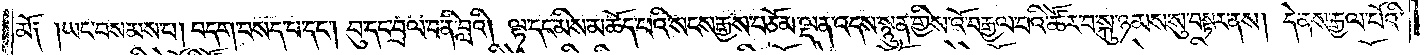མོ༑ །ཡང་བསམས་པ། བདག་བསད་པ་དང༌། བུ་དང་བྲལ་བ་ནི་བླའི། །ལྷ་དང་མིས་མཆོད་པའི་སངས་རྒྱས་བཅོམ་ལྡན་འདས་སྙུན་གྱིས་འོ་བརྒྱལ་བའི་ཚོར་བ་སྐུ་ཉམས་སུ་བསྟར་ནས། དེ་ནས་རྒྱལ་པོའི་
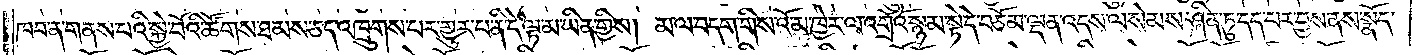ཁབ་ན་གནས་པའི་སྐྱེ་བོའི་ཚོགས་ཐམས་ཅད་འཁྲུགས་པར་གྱུར་པ་ནི་དེ་ལྟ་མ་ཡིན་གྱིས། མ་ལ་བདག་གིས་འོ་མ་ཁྱེར་ལ་འགྲོའོ་སྙམ་སྟེ་དེ་བཅོམ་ལྡན་འདས་ལ་སེམས་ཤིན་ཏུ་དད་པར་བྱས་ནས་སྣོད་
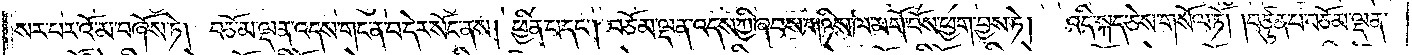སར་པར་འོ་མ་བཞོས་ཏེ། བཅོམ་ལྡན་འདས་གང་ན་བ་དེར་སོང་ནས། ཕྱིན་པ་དང༌། བཅོམ་ལྡན་འདས་ཀྱི་ཞབས་གཉིས་ལ་མགོ་བོས་ཕྱག་བྱས་ཏེ། འདི་སྐད་ཅེས་གསོལ་ཏོ། །བཙུན་པ་བཅོམ་ལྡན་
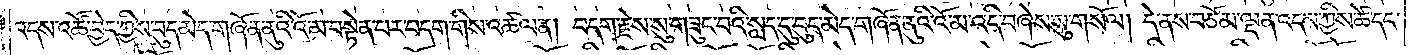འདས་འཚོ་བྱེད་ཀྱིས་བུད་མེད་གཞོན་ནུའི་འོ་མ་བསྟེན་པར་བདག་གིས་འཚལ་ན། བདག་རྗེས་སུ་གཟུང་བའི་སླད་དུ་བུད་མེད་གཞོན་ནུའི་འོ་མ་འདི་བཞེས་སུ་གསོལ། དེ་ནས་བཅོམ་ལྡན་འདས་ཀྱིས་ཚེ་དང་
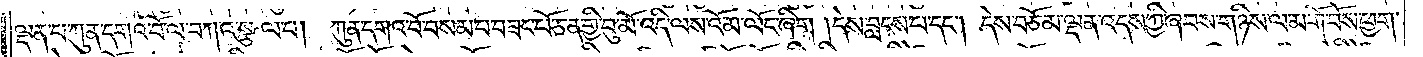ལྡན་པ་ཀུན་དགའ་བོ་ལ་བཀའ་སྩལ་པ། ཀུན་དགའ་བོ་བསམ་པ་བཟང་པོ་ཅན་གྱི་བུ་མོ་འདི་ལས་འོ་མ་ལོང་ཞིག །དེས་བླངས་པ་དང༌། དེས་བཅོམ་ལྡན་འདས་ཀྱི་ཞབས་གཉིས་ལ་མགོ་བོས་ཕྱག་
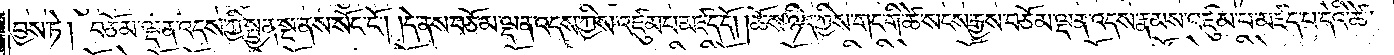བྱས་ཏེ། བཅོམ་ལྡན་འདས་ཀྱི་སྤྱན་སྔ་ནས་སོང་ངོ༌། །དེ་ནས་བཅོམ་ལྡན་འདས་ཀྱིས་འཛུམ་པ་མཛད་དོ། །ཆོས་ཉིད་ཀྱིས་གང་གི་ཚེ་སངས་རྒྱས་བཅོམ་ལྡན་འདས་རྣམས་འཛུམ་པ་མཛད་པ་དེའི་ཚེ་
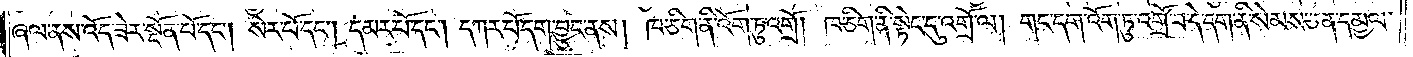ཞལ་ནས་འོད་ཟེར་སྔོན་པོ་དང༌། སེར་པོ་དང༌། དམར་པོ་དང༌། དཀར་པོ་དག་བྱུང་ནས། ཁ་ཅིག་ནི་འོག་ཏུ་འགྲོ། ཁ་ཅིག་ནི་སྟེང་དུ་འགྲོ་ལ། གང་དག་འོག་ཏུ་འགྲོ་བ་དེ་དག་ནི་སེམས་ཅན་དམྱལ་
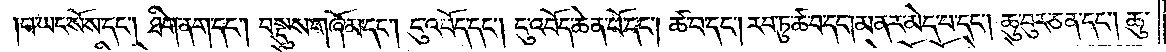བ་ཡང་སོས་དང༌། ཐིག་ནག་དང༌། བསྡུས་གཞོམ་དང༌། ངུ་འབོད་དང༌། ངུ་འབོད་ཆེན་པོ་དང༌། ཚ་བ་དང༌། རབ་ཏུ་ཚ་བ་དང༌།མནར་མེད་པ་དང༌། ཆུ་བུར་ཅན་དང༌། ཆུ་
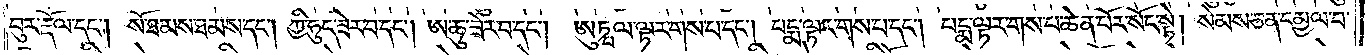བུར་རྡོལ་དང༌། སོ་ཐམས་ཐམས་དང༌། ཀྱི་ཧུད་ཟེར་བ་དང༌། ཨ་ཆུ་ཟེར་བ་དང༌། ཨུཏྤལ་ལྟར་གས་པ་དང༌། པདྨ་ལྟར་གས་པ་དང༌། པདྨ་ལྟར་གས་པ་ཆེན་པོར་སོང་སྟེ། སེམས་ཅན་དམྱལ་བ་
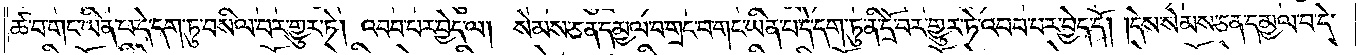ཚ་བ་གང་ཡིན་པ་དེ་དག་ཏུ་བསིལ་བར་གྱུར་ཏེ། འབབ་པར་བྱེད་ལ། སེམས་ཅན་དམྱལ་བ་གྲང་པ་གང་ཡིན་པ་དེ་དག་ཏུ་ནི་དྲོ་བར་གྱུར་ཏེ་འབབ་པར་བྱེད་དོ། །དེས་སེམས་ཅན་དམྱལ་བ་དེ་
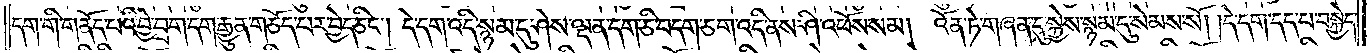དག་གི་གནོད་པའི་བྱེ་བྲག་དག་རྒྱུན་གཅོད་པར་བྱེད་ཅིང༌། དེ་དག་འདི་སྙམ་དུ་ཤེས་ལྡན་དག་ཅི་བདག་ཅག་འདི་ནས་ཤི་འཕོས་སམ། འོན་ཏེ་གཞན་དུ་སྐྱེས་སྙམ་དུ་སེམས་སོ། །དེ་དག་དད་པ་བསྐྱེད་
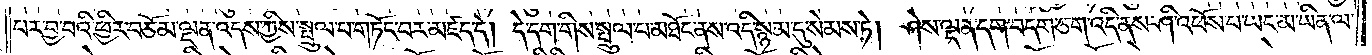པར་བྱ་བའི་ཕྱིར་བཅོམ་ལྡན་འདས་ཀྱིས་སྤྲུལ་པ་གཏོང་བར་མཛད་དེ། དེ་དག་གིས་སྤྲུལ་པ་མཐོང་ནས་འདི་སྙམ་དུ་སེམས་ཏེ། ཤེས་ལྡན་དག་བདག་ཅག་འདི་ནས་ཤི་འཕོས་པ་ཡང་མ་ཡིན་ལ་
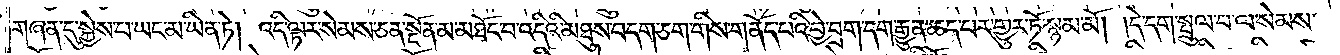གཞན་དུ་སྐྱེས་པ་ཡང་མ་ཡིན་ཏེ། འདི་ལྟར་སེམས་ཅན་སྔོན་མ་མཐོང་བ་འདིའི་མཐུས་བདག་ཅག་གིས་གནོད་པའི་བྱེ་བྲག་དག་རྒྱུན་ཆད་པར་གྱུར་ཏོ་སྙམ་མོ། །དེ་དག་སྤྲུལ་པ་ལ་སེམས་
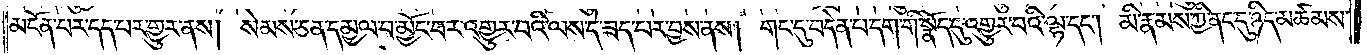མངོན་པར་དད་པར་གྱུར་ནས། སེམས་ཅན་དམྱལ་བ་མྱོང་བར་འགྱུར་བའི་ལས་དེ་ཟད་པར་བྱས་ནས། གང་དུ་བདེན་པ་དག་གི་སྣོད་དུ་འགྱུར་བའི་ལྷ་དང༌། མི་རྣམས་ཀྱི་ནང་དུ་ཉིད་མཚམས་
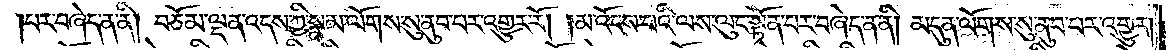།པར་བཞེད་ན་ནི། བཅོམ་ལྡན་འདས་ཀྱི་སྣམ་ལོགས་སུ་ནུབ་བ་པར་འགྱུར་རོ། །མ་འོངས་པའི་ལས་ལུང་སྟོན་པར་བཞེད་ན་ནི། མདུན་ལོགས་སུ་ནུབ་པར་འགྱུར།
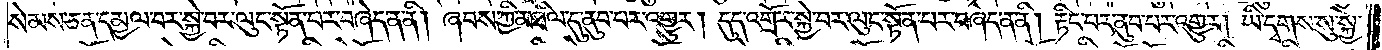སེམས་ཅན་དམྱལ་བར་སྐྱེ་བར་ལུང་སྟོན་པར་བཞེད་ན་ནི། ཞབས་ཀྱི་མཐིལ་དུ་ནུབ་པར་འགྱུར། དུད་འགྲོར་སྐྱེ་བར་ལུང་སྟོན་པར་བཞེད་ན་ནི། རྟིང་པར་ནུབ་པར་འགྱུར། ཡི་དྭགས་སུ་སྐྱེ་
